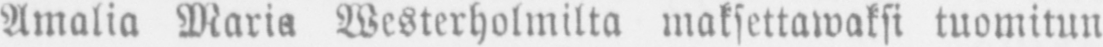Amalia Maria Westerholmilta maksettawaksi tuomitun
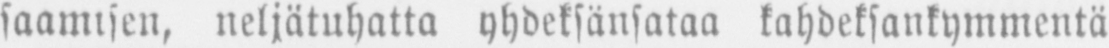saamisen, neljätuhatta yhdeksänsataa kahdeksankymmentä
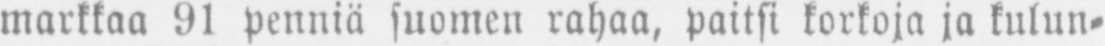markkaa 91 penniä suomen rahaa, paitsi korkoja ja kulun-
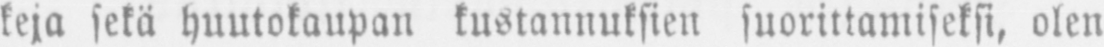keja sekä huutokaupan kustannuksien suorittamiseksi, olen
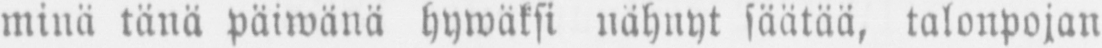minä tänä päiwänä hywäksi nähnyt säätää, talonpojan
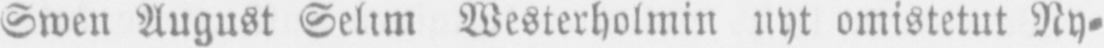Swen August Selim Westerholmin nyt omistetut Ny-
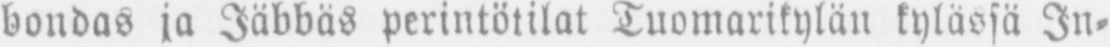bondas ja Jäbbäs perintötilat Tuomarikylän kylässä In-
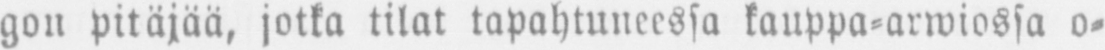gon pitäjää, jotka tilat tapahtuneessa kauppa-arwiossa o-
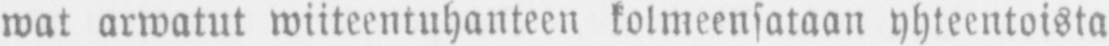wat arwatut wiiteentuhanteen kolmeensataan yhteentoista
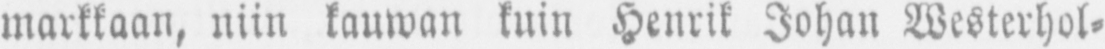markkaan, niin kauwan kuin Henrik Johan Westerhol-
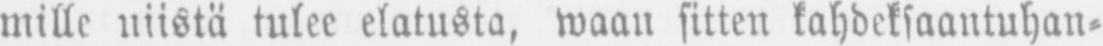mille niistä tulee elatusta, waan sitten kahdeksaantuhan-
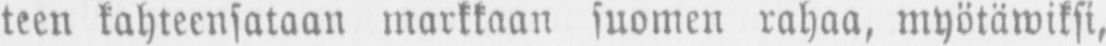teen kahteensataan markkaan suomen rahaa, myötäwiksi,
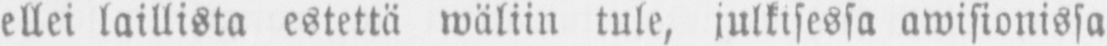ellei laillista estettä wäliin tule, julkisessa awisionissa
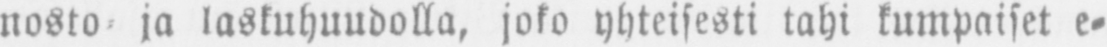nosto ja laskuhuudolla, joko yhteisesti tahi kumpaiset e-
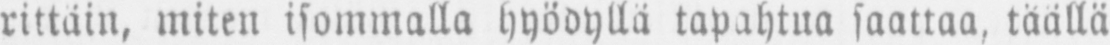rittäin, miten isommalla hyödyllä tapahtua saattaa, täällä
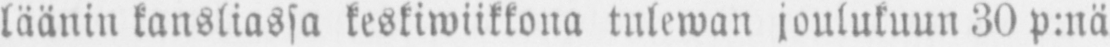läänin kansliassa keskiwiikkona tulewan joulukuun 30 p:nä
